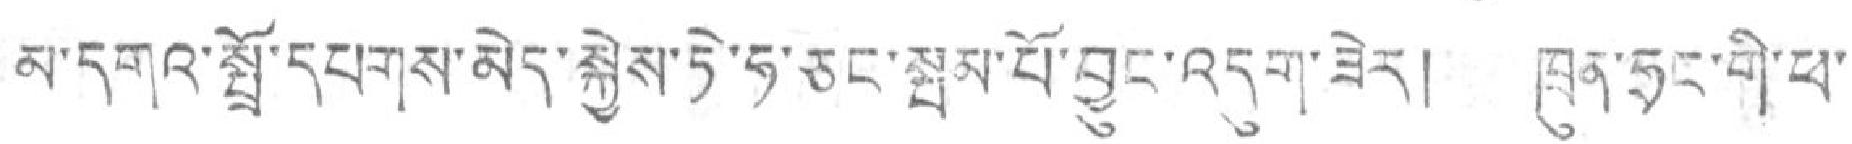མ་དགའ་སྤྲོ་དཔགས་མེད་སྐྱེས་ཏེ་ཧ་ཅང་སྤམ་པོ་བྱུང་འདུག་ཟེར། ཁྱུན་ཧྲང་གི་ཕ་
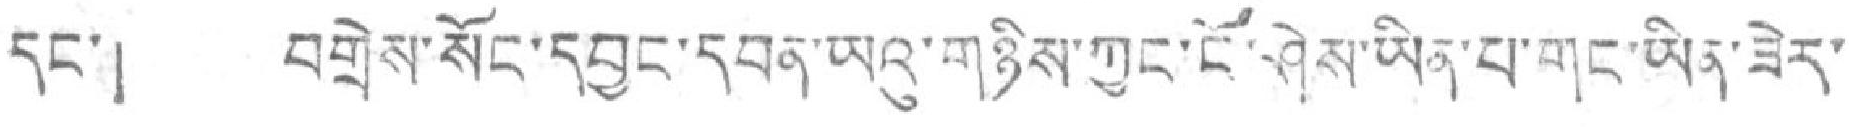དང་། བགྲེས་སོང་དབྱང་དབན་ཡའུ་གཉིས་ཀྱང་ངོ་ཤེས་ཡིན་པ་གང་ཡིན་ཟེར་
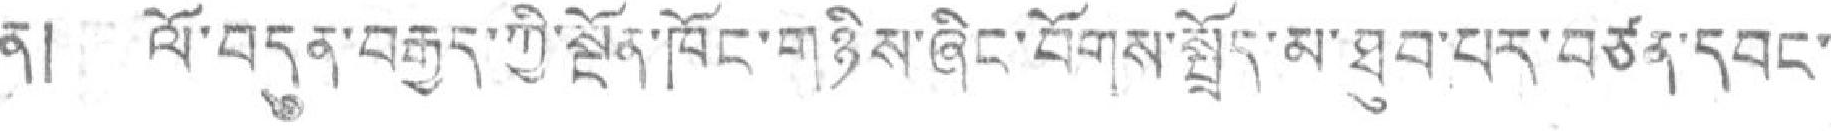ན། ལོ་བདུན་བརྒྱད་ཀྱི་སྔོན་ཁོང་གཉིས་ཞིང་བོགས་སྤྲོད་མ་ཐུབ་པར་བཙན་དབང་
